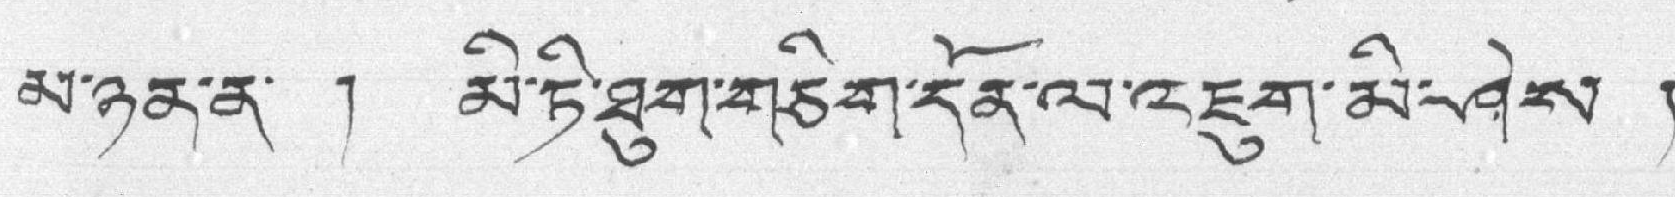མ་ཉན་ན་ ། མི་ཏི་ཐུག་གཅིག་དོན་ལ་འཇུག་མི་ཤེས །
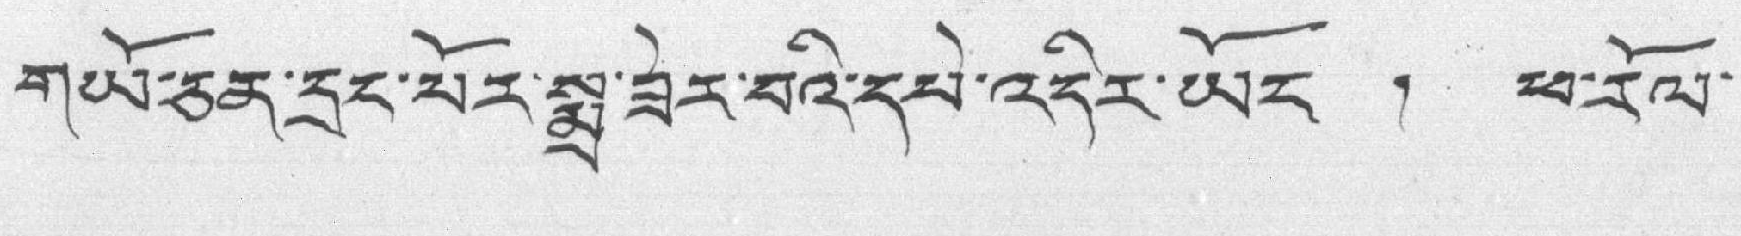གཡོ་ཅན་དྲང་པོར་སྨྲ་ཟེར་བའི་དཔེ་འདིར་ཡོང ། ཕ་རོལ་
